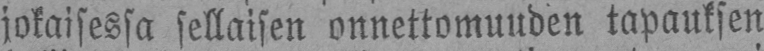jokaisessa sellaisen onnettomuuden tapauksen
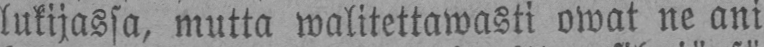lukijassa, mutta walitettawasti owat ne ani
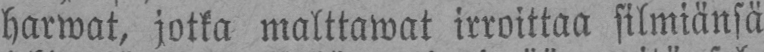harwat, jotka malttawat irroittaa silmiänsä
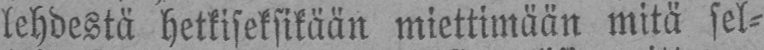lehdestä hetkiseksikään miettimään mitä sel-
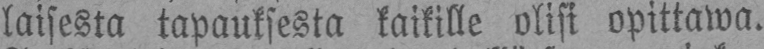laisesta tapauksesta kaikille olisi opittawa.
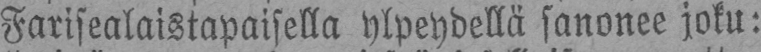Farisealaistapaisella ylpeydellä sanonee joku:
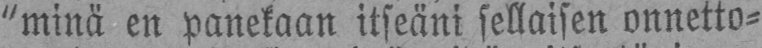"minä en panekaan itseäni sellaisen onnetto-
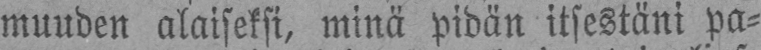muuden alaiseksi, minä pidän itsestäni pa-
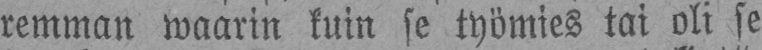remman waarin kuin se työmies tai oli se
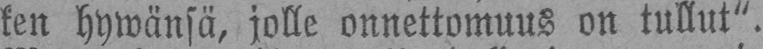ken hywänsä, jolle onnettomuus on tullut".
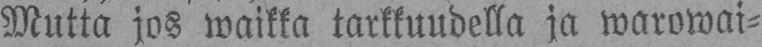Mutta jos waikka tarkkuudella ja warowai-
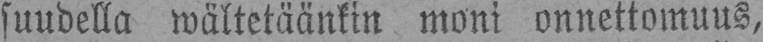suudella wältetäänkin moni onnettomuus,
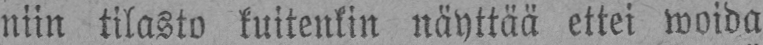niin tilasto kuitenkin näyttää ettei woida
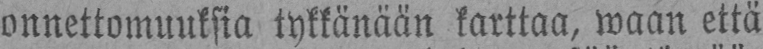onnettomuuksia tykkänään karttaa, waan että
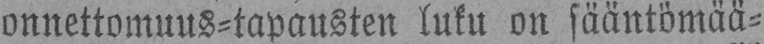onnettomuus-tapausten luku on sääntömää-
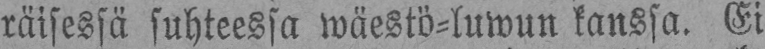räisessä suhteessa wäestö-luwun kanssa. Ei
